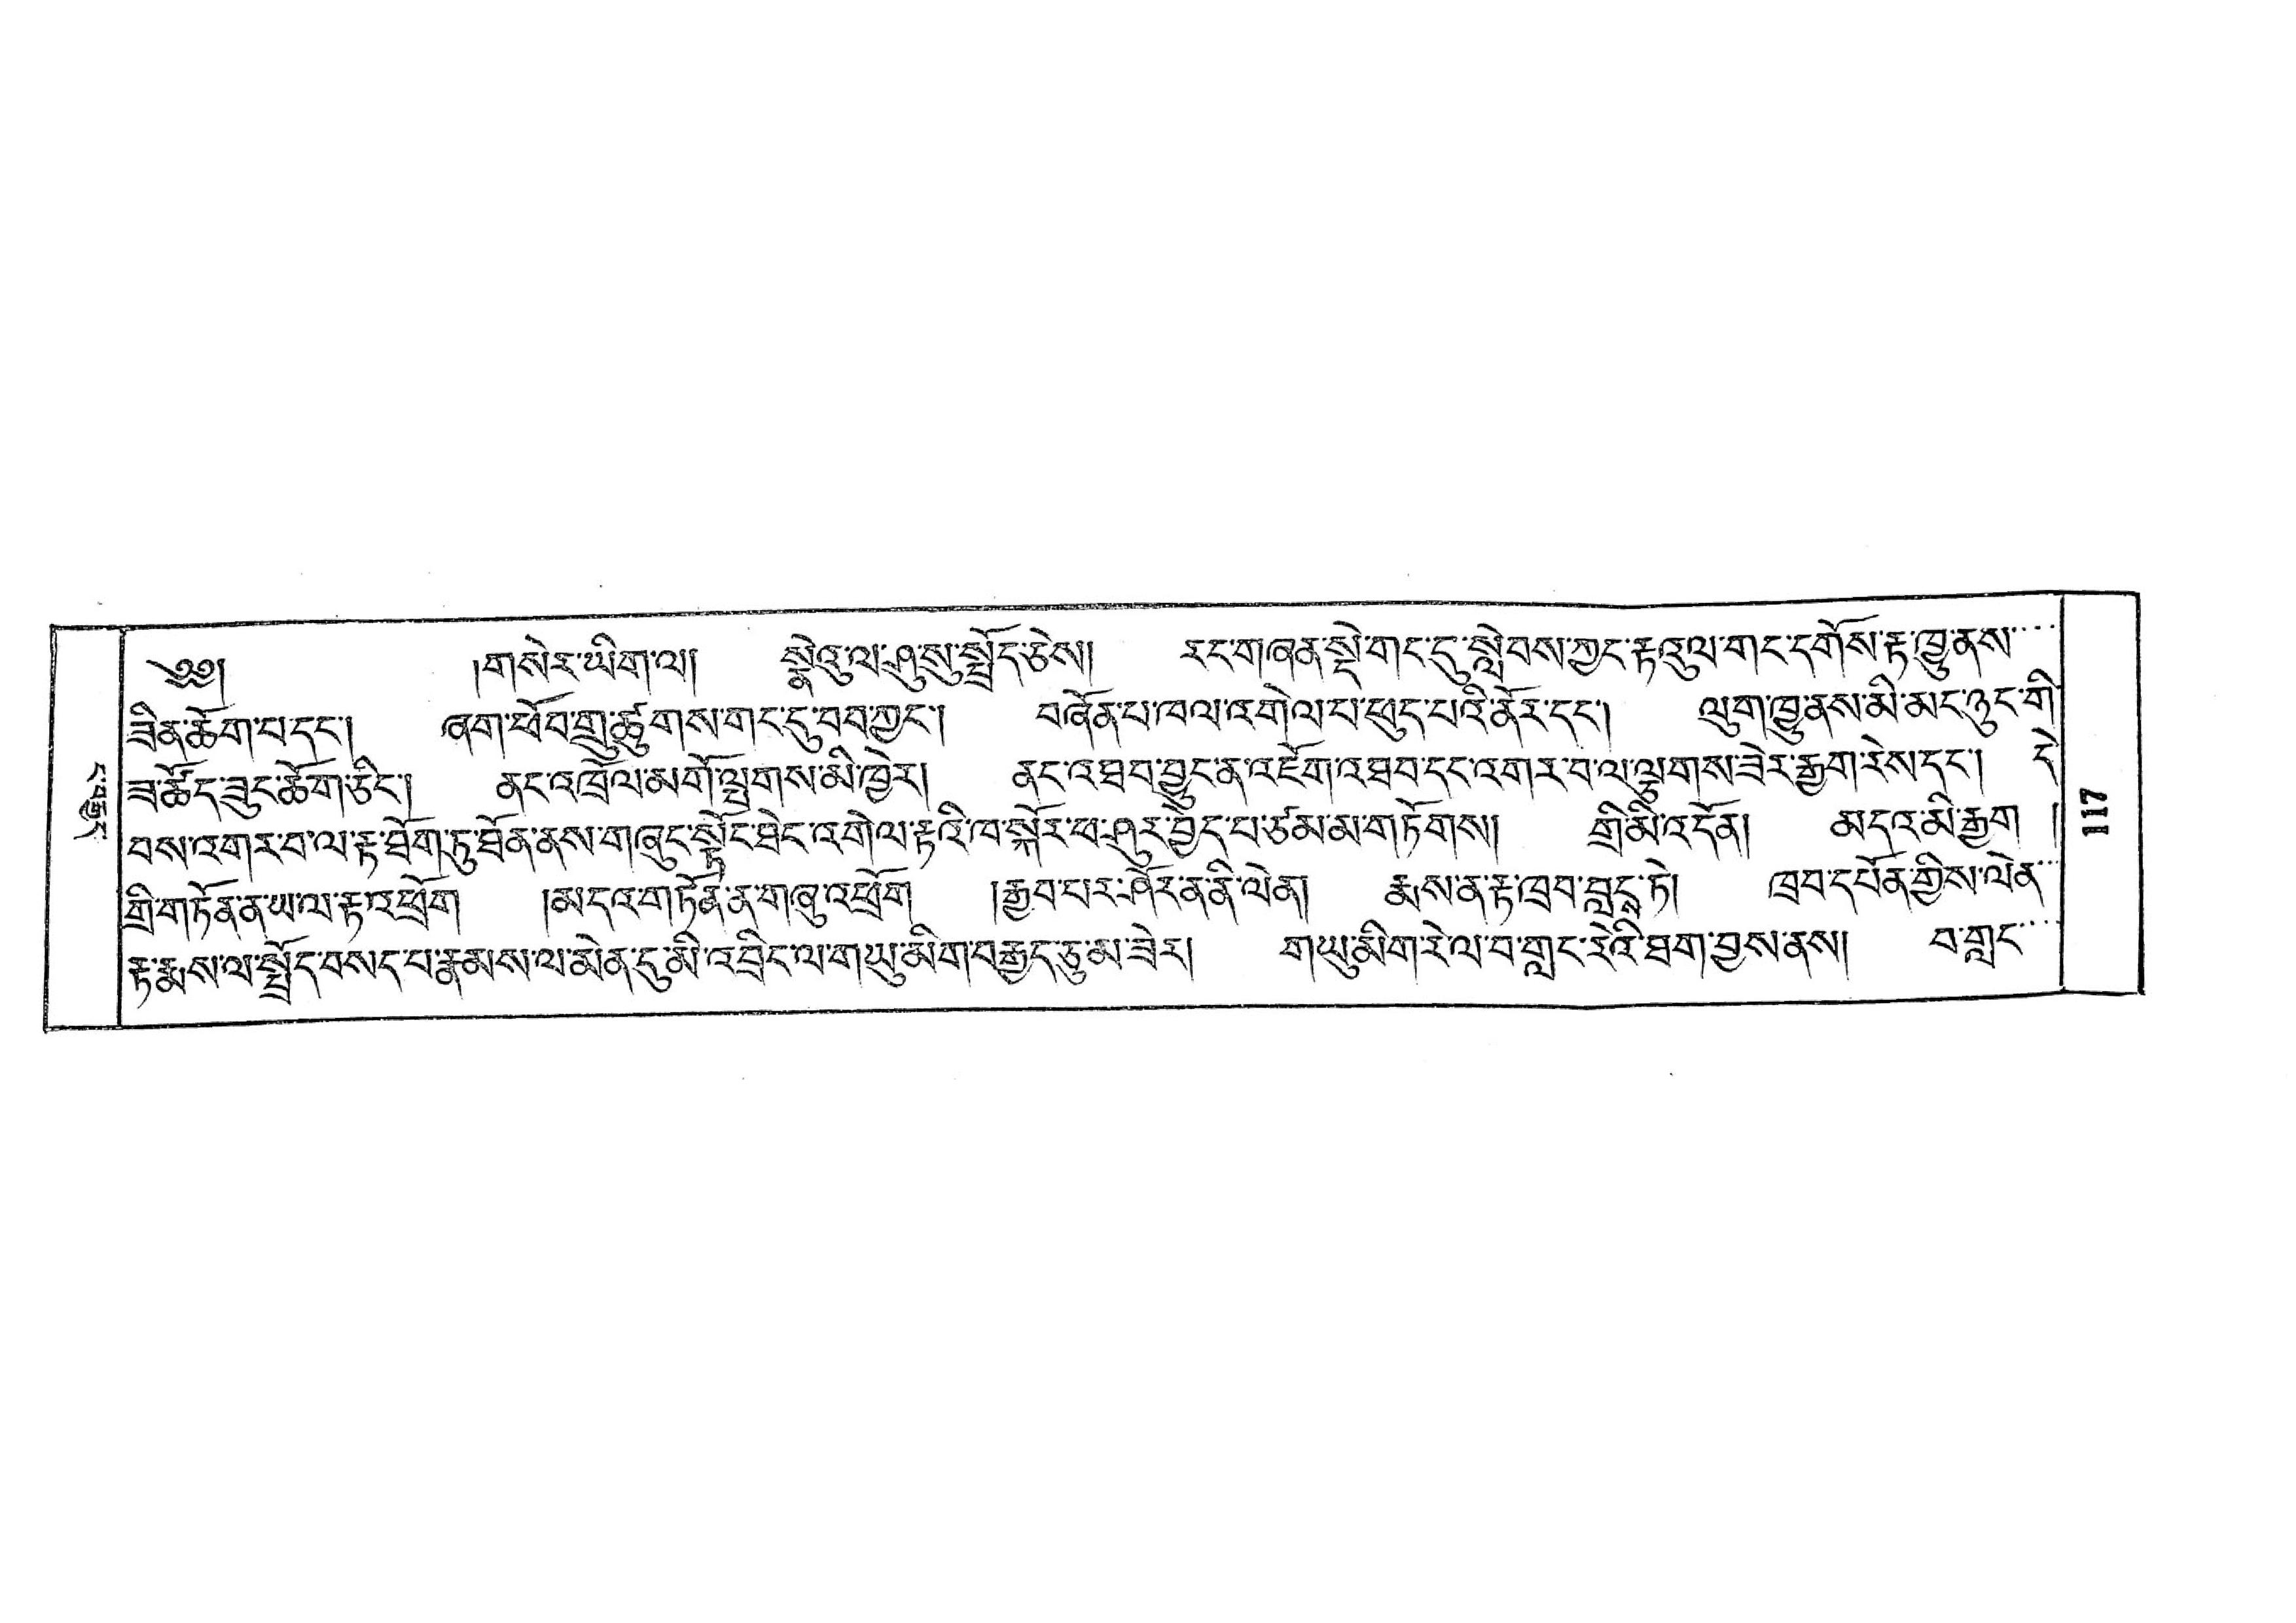ང་བརྒྱད་
༄༅།  །གསེར་ཡིག་ལ། སྣེའུ་ལ་ཤུ་སུ་སྤྲོད་ཅེས། རང་གཞན་སྡེ་གང་དུ་སླེབས་ཀྱང་རྟའུལ་གང་དགོས་རྟ་ཁྱུ་ནས་་་་
ཟིན་ཆོག་པ་དང་། ཞག་ཕོབ་གྲུ་ཚུགས་གང་དུ་བབ་ཀྱང་། བཞོན་པ་ཁལ་འགེལ་པ་ཕུད་པའི་ནོར་དང་། ལུག་ཁྱུ་ནས་མི་མང་ཉུང་གི་
ཟ་ཚོད་ཟུང་ཆོག་ཅིང་། ནང་འཁྲོལ་མགོ་ལྤགས་མི་ཁྱེར། ནང་འཐབ་བྱུང་ན་འཇོག་འཐབ་དང་འགར་བ་ལ་ལྕགས་ཟེར་རྒྱག་རེས་དང་། དེ་
བས་འགར་བ་ལ་རྟ་ཐོག་ཏུ་ཐོན་ནས་གཞུང་སྟོང་ཐེང་འགེལ་རྟའི་ཁ་སྐོར་ཕ་ཤུར་བྱེད་པ་ཙམ་མ་གཏོགས། གྲི་མི་འདོན། མདའ་མི་རྒྱག །
གྲི་གཏོནན་ཡ་ལ་རྟ་འཕྲོག །མདའ་གཏོན་ན་གཞུ་འཕྲོག །རྒྱབ་པར་ཤོར་ན་ནི་ལེན། རྨས་ན་རྟ་ཁྲབ་བླངས་ཏེ། ཁྲབ་དཔོན་གྱིས་ལེན་་་
རྟ་རྨས་ལ་སྤྲོད་བསད་པ་རྣམས་ལ་མེན་དུ་མི་འབྲིང་ལ་གཡུ་མིག་བརྒྱད་ཅུ་མ་ཟེར། གཡུ་མིག་རེ་ལ་བ་གླང་རེའི་ཐག་བྱས་ནས། བ་གླང་་་་
